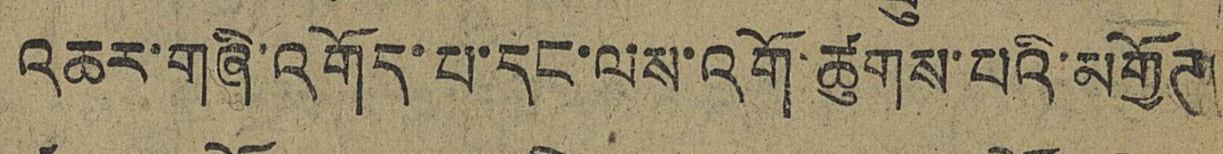འཆར་གཞི་འགོད་པ་དང་ལས་འགོ་ཚུགས་པའི་མགྱོཊ་
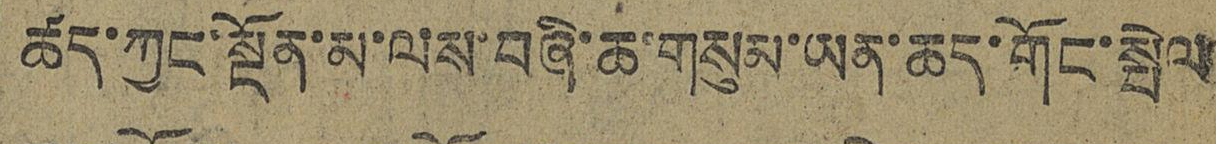ཚད་ཀྱང་སྔོན་མ་ལས་བཞི་ཆ་གསུམ་ཡན་ཆད་གོང་སྤེལ
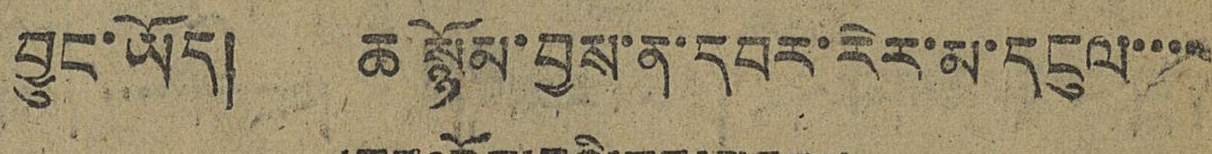བྱུང་ཡོད། ཆ་སྙོམ་བྱས་ན་དབར་རེར་མ་དངུལ་་་་
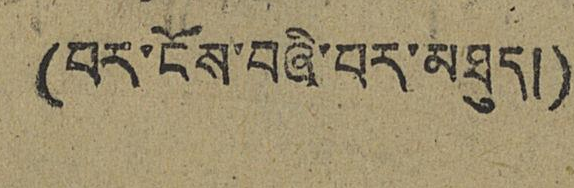(པར་ངོས་བཞི་པར་མཐུད།)
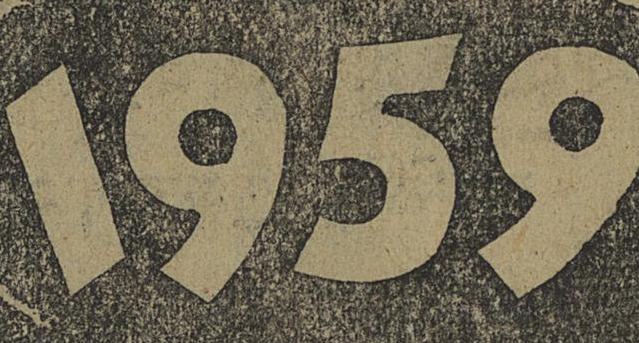1959
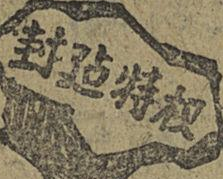封⿺廴占特权
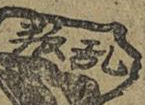叛乱
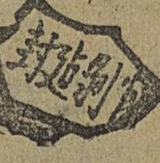封⿺廴占剥削
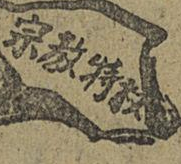宗教特权
